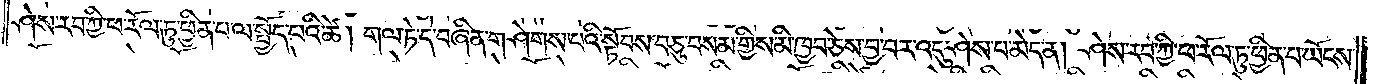ཤེས་རབ་ཀྱི་ཕ་རོལ་ཏུ་ཕྱིན་པ་ལ་སྤྱོད་པའི་ཚེ། གལ་ཏེ་དེ་བཞིན་གཤེགས་པའི་སྟོབས་བཅུ་བསམ་གྱིས་མི་ཁྱབ་ཅེས་བྱ་བར་འདུ་ཤེས་པ་མེད་ན། ཤེས་།རབ་ཀྱི་ཕ་རོལ་ཏུ་ཕྱིན་པ་ཡོངས་
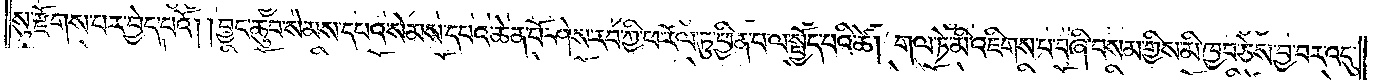སུ་རྫོགས་པར་བྱེད་པའོ། །བྱང་ཆུབ་སེམས་དཔའ་སེམས་དཔའ་ཆེན་པོ་ཤེས་རབ་ཀྱི་ཕ་རོལ་ཏུ་ཕྱིན་པ་ལ་སྤྱོད་པའི་ཚེ། གལ་ཏེ་འཇིགས་པ་བཞི་བསམ་གྱིས་མི་ཁྱབ་ཅེས་བྱ་བར་འདུ་
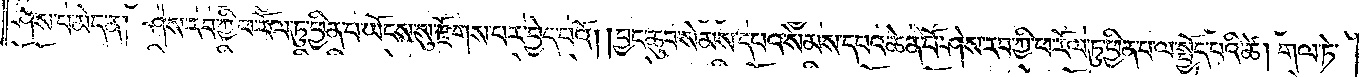ཤེས་པ་མེད་ན། ཤེས་རབ་ཀྱི་ཕ་རོལ་ཏུ་ཕྱིན་པ་ཡོངས་སུ་རྫོགས་པར་བྱེད་པའོ། །བྱང་ཆུབ་སེམས་དཔའ་སེམས་དཔའ་ཆེན་པོ་ཤེས་རབ་ཀྱི་ཕ་རོལ་ཏུ་ཕྱིན་པ་ལ་སྤྱོད་པའི་ཚེ། གལ་ཏེ་
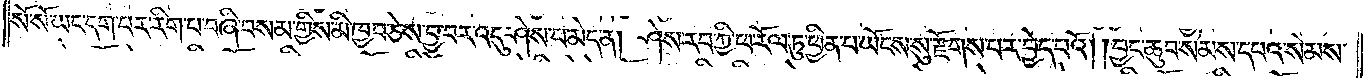སོ་སོ་ཡང་དག་པར་རིག་པ་བཞི་བསམ་གྱིས་མི་ཁྱབ་ཅེས་བྱ་བར་འདུ་ཤེས་པ་མེད་ན། ཤེས་རབ་ཀྱི་ཕ་རོལ་ཏུ་ཕྱིན་པ་ཡོངས་སུ་རྫོགས་པར་བྱེད་པའོ། །བྱང་ཆུབ་སེམས་དཔའ་སེམས་
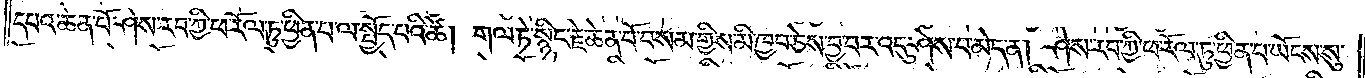དཔའ་ཆེན་པོ་ཤེས་རབ་ཀྱི་ཕ་རོལ་ཏུ་ཕྱིན་པ་ལ་སྤྱོད་པའི་ཚེ། གལ་ཏེ་སྙིང་རྗེ་ཆེན་པོ་བསམ་གྱིས་མི་ཁྱབ་ཅེས་བྱ་བར་འདུ་ཤེས་པ་མེད་ན། ཤེས་རབ་ཀྱི་ཕ་རོལ་ཏུ་ཕྱིན་པ་ཡོངས་སུ་
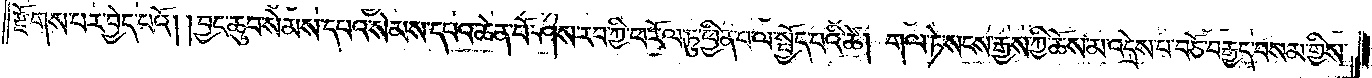རྫོགས་པར་བྱེད་པའོ། །བྱང་ཆུབ་སེམས་དཔའ་སེམས་དཔའ་ཆེན་པོ་ཤེས་རབ་ཀྱི་ཕ་རོལ་ཏུ་ཕྱིན་པ་ལ་སྤྱོད་པའི་ཚེ། གལ་ཏེ་སངས་རྒྱས་ཀྱི་ཆོས་མ་འདྲེས་པ་བཅོ་བརྒྱད་བསམ་གྱིས་
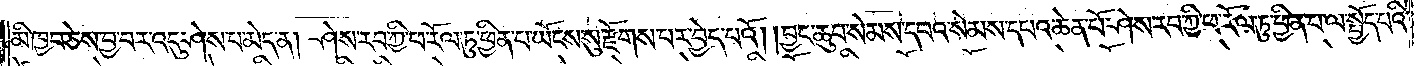མི་ཁྱབ་ཅེས་བྱ་བར་འདུ་ཤེས་པ་མེད་ན། ཤེས་རབ་ཀྱི་ཕ་རོལ་ཏུ་ཕྱིན་པ་ཡོངས་སུ་རྫོགས་པར་བྱེད་པའོ། །བྱང་ཆུབ་སེམས་དཔའ་སེམས་དཔའ་ཆེན་པོ་ཤེས་རབ་ཀྱི་ཕ་རོལ་ཏུ་ཕྱིན་པ་ལ་སྤྱོད་པའི་
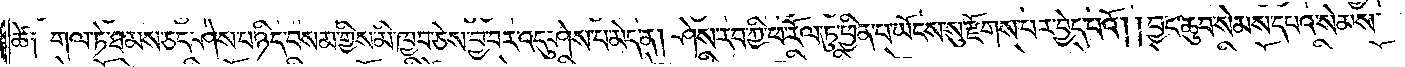ཚེ༑ གལ་ཏེ་ཐམས་ཅད་ཤེས་པ་ཉིད་བསམ་གྱིས་མི་ཁྱབ་ཅེས་བྱ་བར་འདུ་ཤེས་པ་མེད་ན། ཤེས་རབ་ཀྱི་ཕ་རོལ་ཏུ་ཕྱིན་པ་ཡོངས་སུ་རྫོགས་པར་བྱེད་པའོ། །བྱང་ཆུབ་སེམས་དཔའ་སེམས་
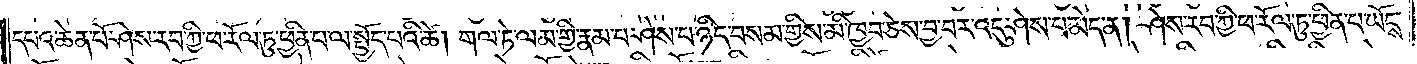དཔའ་ཆེན་པོ་ཤེས་རབ་ཀྱི་ཕ་རོལ་ཏུ་ཕྱིན་པ་ལ་སྤྱོད་པའི་ཚེ། གལ་ཏེ་ལམ་གྱི་རྣམ་པ་ཤེས་པ་ཉིད་བསམ་གྱིས་མི་ཁྱབ་ཅེས་བྱ་བར་འདུ་ཤེས་པ་མེད་ན། ཤེས་རབ་ཀྱི་ཕ་རོལ་ཏུ་ཕྱིན་པ་ཡོངས་
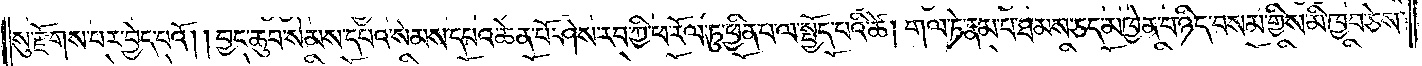སུ་རྫོགས་པར་བྱེད་པའོ། །བྱང་ཆུབ་སེམས་དཔའ་སེམས་དཔའ་ཆེན་པོ་ཤེས་རབ་ཀྱི་ཕ་རོལ་ཏུ་ཕྱིན་པ་ལ་སྤྱོད་པའི་ཚེ། གལ་ཏེ་རྣམ་པ་ཐམས་ཅད་མཁྱེན་པ་ཉིད་བསམ་གྱིས་མི་ཁྱབ་ཅེས་
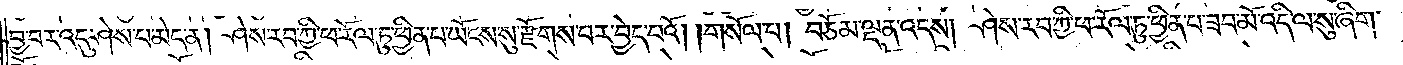བྱ་བར་འདུ་ཤེས་པ་མེད་ན། ཤེས་རབ་ཀྱི་ཕ་རོལ་ཏུ་ཕྱིན་པ་ཡོངས་སུ་རྫོགས་པར་བྱེད་པའོ། །གསོལ་པ། བཅོམ་ལྡན་འདས། ཤེས་རབ་ཀྱི་ཕ་རོལ་ཏུ་ཕྱིན་པ་ཟབ་མོ་འདི་ལ་སུ་ཞིག་
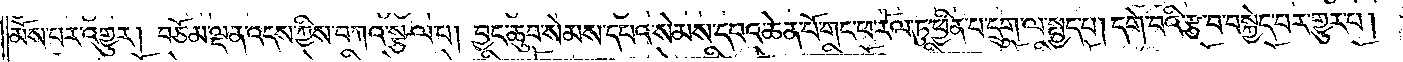མོས་པར་འགྱུར། བཅོམ་ལྡན་འདས་ཀྱིས་བཀའ་སྩལ་པ། བྱང་ཆུབ་སེམས་དཔའ་སེམས་དཔའ་ཆེན་པོ་གང་ཕ་རོལ་ཏུ་ཕྱིན་པ་དྲུག་ལ་སྤྱད་པ། དགེ་བའི་རྩ་བ་བསྐྱེད་པར་གྱུར་པ།
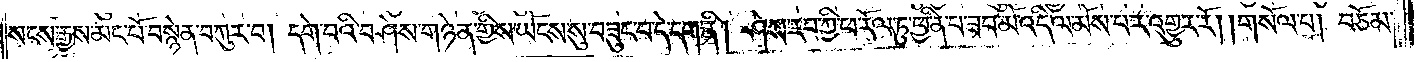སངས་རྒྱས་མང་པོ་བསྙེན་བཀུར་བ། དགེ་བའི་བཤེས་གཉེན་གྱིས་ཡོངས་སུ་བཟུང་བ་དེ་དག་ནི། ཤེས་རབ་ཀྱི་ཕ་རོལ་ཏུ་ཕྱིན་པ་ཟབ་མོ་འདི་ལ་མོས་པར་འགྱུར་རོ། །གསོལ་པ། བཅོམ་
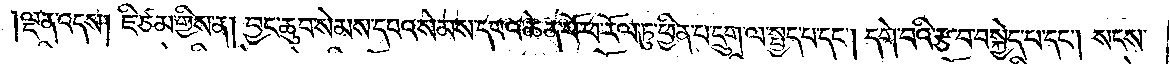ལྡན་འདས། ཇི་ཙམ་གྱིས་ན། བྱང་ཆུབ་སེམས་དཔའ་སེམས་དཔའ་ཆེན་པོ་ཕ་རོལ་ཏུ་ཕྱིན་པ་དྲུག་ལ་སྤྱོད་པ་དང༌། དགེ་བའི་རྩ་བ་བསྐྱེད་པ་དང༌། སངས་
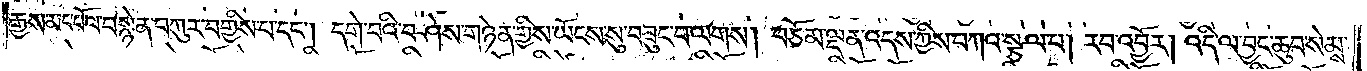རྒྱས་མང་པོ་བསྙེན་བཀུར་བགྱིས་པ་དང༌། དགེ་བའི་བཤེས་གཉེན་གྱིས་ཡོངས་སུ་བཟུང་བ་ལགས། བཅོམ་ལྡན་འདས་ཀྱིས་བཀའ་སྩལ་པ། རབ་འབྱོར། འདི་ལ་བྱང་ཆུབ་སེམས་
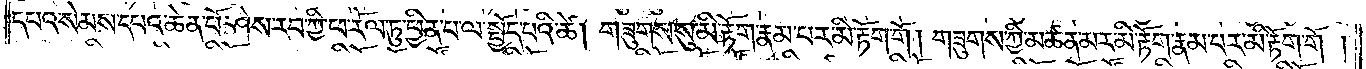དཔའ་སེམས་དཔའ་ཆེན་པོ་ཤེས་རབ་ཀྱི་ཕ་རོལ་ཏུ་ཕྱིན་པ་ལ་སྤྱོད་པའི་ཚེ། གཟུགས་སུ་མི་རྟོག་རྣམ་པར་མི་རྟོག་གོ །གཟུགས་ཀྱི་མཚན་མར་མི་རྟོག་རྣམ་པར་མི་རྟོག་གོ།
